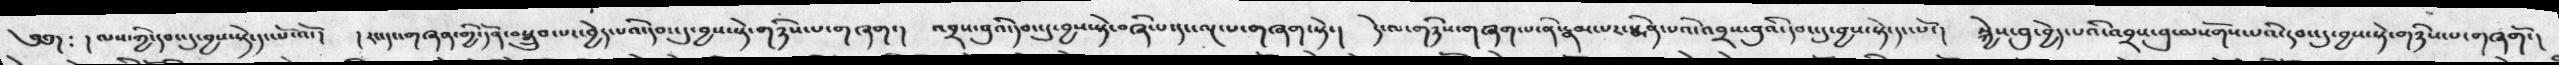༄༅། ༴ །ལས་ཀྱི་དབང་དུ་བྱས་སྟེ་དང་པོ་འོ་།  །རང་དང་གཞན་གྱི་དོན་བསྒྲུབ་པར་བྱེད་པའི་དབང་དུ་བྱས་སྟེ་གཉིས་པ་གཞག་།  འབྲས་བུའི་དབང་དུ་བྱས་སྟེ་བཞི་པ་དང་ལྔ་པ་གཞག་སྟེ་།  དེ་ལ་གཉིས་གཞག་པ་ནི་རྣམ་པར་སྨིན་པའི་འབྲས་བུའི་དབང་དུ་བྱས་སྟེ་དང་པོ་།  སྐྱེས་བུ་བྱེད་པའི་འབྲས་བུ་ལསོགས་པའི་དབང་དུ་བྱས་སྟེ་གཉིས་པ་གཞགོ་།
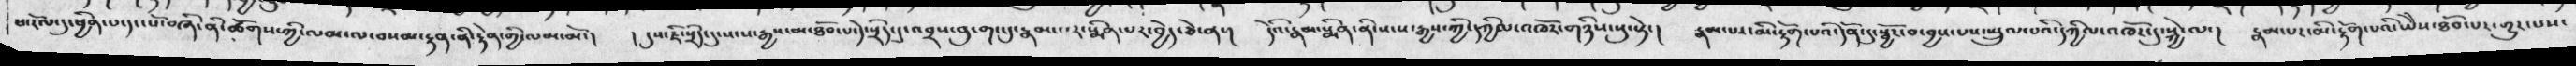ཕ་རོལ་དུ་ཕྱིན་པ་དང་པོ་བཞི་ནི་ཚོགས་ཀྱི་ལམ་ལ་བསམ་རྟན་ནི་རྟེན་ལམ་མོ་།   ། དུས་ཇི་སྲིད་དུ་སངས་རྒྱས་མ་ཐོབ་པ་དེ་སྲིད་དུ་འབྲས་བུ་གང་དུ་རྣམ་པར་སྨིན་པར་བྱེད་ཅེ་ན་།   དེའི་རྣམ་སྨིན་ནི་སངས་རྒྱས་ཀྱི་དཀྱིལ་འཁོར་གཉིས་སུ་སྟེ་།  རྣམ་པར་མི་རྟོག་པའི་དོན་དུ་སྦྱོར་བ་བྱས་པས་སྤྲུལ་པའི་དཀྱིལ་འཁོར་དུ་སྐྱེ་ལ་།   རྣམ་པར་མི་རྟོག་པའི་ཡེེས་ཐོབ་པར་གྱུར་པས་
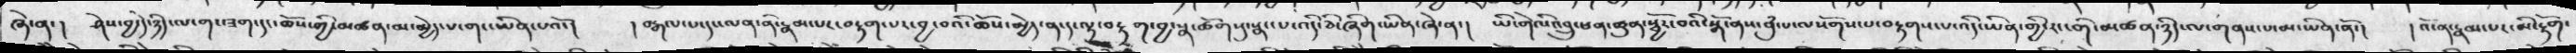ཞེ་ན་།  ཤེས་བྱ་དེ་ཉིད་ལ་གང་ཟག་དང་ཆོས་གྱི་མཚན་མ་མྱེད་པ་གང་ཡིན་པའོ་།  །བརྒལ་པ་དང་ལན་ནི་རྣམ་པར་བརྟག་པར་བྱ་བའི་ཆོས་མྱེད་ན་ད་ལྟ་བརྟག་བྱ་སྣ་ཚོགསུ་སྣང་པ་འདི་ཅི་ཞིག་ཡིན་ཞེ་ན་། ཡི་གེའི་འབྲུ་ཕན་ཚུན་སྦྱོར་བའི་སྒོ་ནས་བུཾ་པ་ལསོགས་པ་བརྟགས་པ་འདི་ཡིན་གྱི་རང་གི་མཚན་ཉིད་ལ་གནས་པ་མ་ཡི་ནོ་།  །འོ་ན་རྣམ་པར་མི་རྟོག་
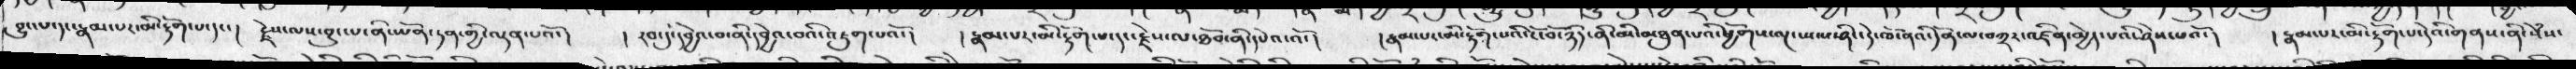བྱུང་པ་དང་རྣམ་པར་མ་རྟོག་པ་དང་།  རྗེས་ལས་བྱུང་པ་ནི་ཡོན་ཏན་གྱི་ལྡན་པའོ་།  ། རབ་དུ་དབྱེའ་བ་ནི་དབྱེའ་བའི་འཇུག་པའོ་།  ། རྣམ་པར་མི་རྟོག་པ་དང་རྗེས་ལ་ཐོབ་ནི་དཔེའ་འོ་།   །རྣམ་པར་མི་རྟོག་པའི་ངོ་བོ་ཉིད་ནི་མི་མཐུན་པའི་ཕྱོགས་ལྔ་སྤངས་ཤིང་དེ་ཁོ་ནའི་དོན་ལ་བཀྲར་འཛིན་མྱེད་པའི་ཤེས་པའོ་།  །རྣམ་པར་མི་རྟོག་པ་དེའི་གནས་ནི་སེཾས་
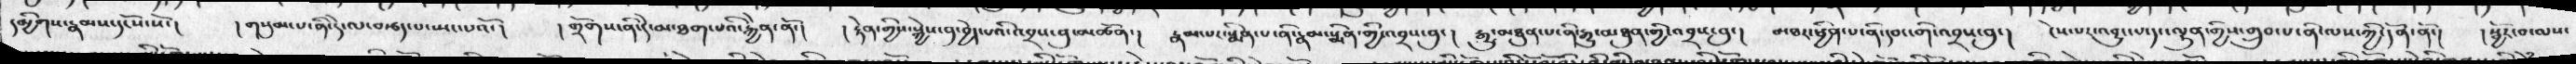དམྱིགས་རྣམས་དངོས་སོ་།  །གསུམ་པ་ནི་དེ་ལ་བརྩད་པ་སྤང་པའོ་།  ། གྲོགས་ནི་དེ་མ་ཐག་པའི་རྐྱེན་ནོ་།  ། རྟེན་གྱིས་སྐྱེས་བུ་བྱེད་པའི་འབྲས་བུ་མཚོན་།  རྣམ་པར་སྨིན་པ་ནི་རྣམ་སྨིན་གྱི་འབྲས་བུ་།  རྒྱུ་མཐུན་པ་ནི་རྒྱུ་མཐུན་གྱི་འབྲས་་བུ་།  མཐར་ཕྱིན་པ་ནི་དབང་གི་འབྲས་བུ་།  ངེས་པར་འབྱུང་པ་དང་ལྷུན་གྱིས་གྲུབ་པ་ནི་ལས་ཀྱི་དོན་ནོ་།  ། སྦྱོར་བ་ལས་
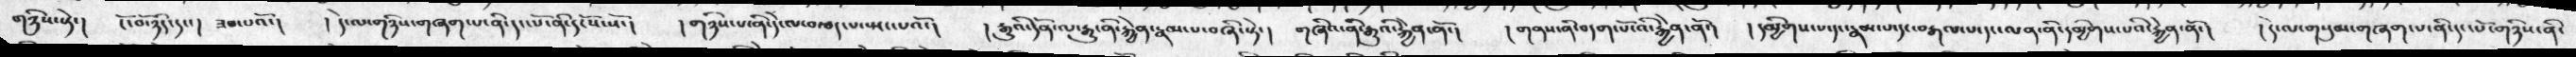གཉིས་སྟེ་།   ངོ་བོ་ཉིད་དང་།  ཟབ་པའོ་།  །དེ་ལ་གཉིས་གཞག་པ་ནི་དང་པོ་ནི་དངོས་སོ་།  །གཉིས་པ་ནི་དེ་ལ་བརྩད་པ་སྤང་པའོ་།  །རྒྱུའི་དོན་ལ་རྒྱུ་རྐྱེན་རྣམ་པ་བཞི་སྟེ་།  གཞིའ་ནི་རྒྱུའི་རྐྱེན་ནོ་།  །གནས་ནི་བདག་པོ་འི་རྐྱེན་ནོ་།  །དམྱིགས་པ་དང་རྣམ་པ་དང་བརྒལ་པ་དང་ལན་ནི་དམྱིགས་པའི་རྐྱེན་ནོ་།  །དེ་ལ་གསུམ་གཞག་པ་ནི་དང་པོ་གཉིས་ནི་
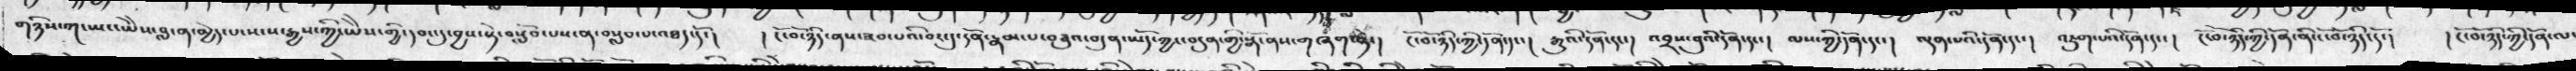གཉིས་པ་ཡང་ཡེེས་བླ་ན་མྱེད་པ་སངས་རྒྱས་ཀྱི་ཡེེས་གྱི་དབང་དུ་བྱས་སྟེ་བསློབ་པས་ན་བསླབ་པ་འཐད་དོ་།   ། ངོ་བོ་ཉིད་ནས་ཟབ་པའི་བར་དུ་དོན་རྣམ་པ་བཅུའ་བདུན་ཡོད་ཀྱང་བདུན་གྱི་སྒོ་ནས་གཞག་སྟེ་།  ངོ་བོ་ཉིད་ཀྱི་དོན་དང་།  རྒྱུའི་དོན་དང་།  འབྲས་བུའི་དོན་དང་།  ལས་ཀྱི་དོན་དང་།  ལྡན་པའི་དོན་དང་།  འཇུག་པའི་དོན་དང་།  ངོ་བོ་ཉིད་ཀྱི་དོན་ནི་ངོ་བོ་ཉིད་དོ་།  ། ངོ་བོ་ཉིད་དོན་ལ་
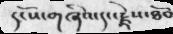དངོས་གཞིའ་དང་རྗེས་ཐོབ
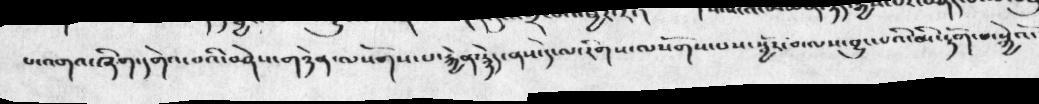པ་འགའ་ཞིག་དགེའ་བའི་བཤེས་གཉེན་ལསོགས་པ་རྐྱེན་རྙེད་ནས་དེ་ལ་རིགས་ལསོགས་པས་སྦྱོར་བ་ལས་བྱུང་པའི་མི་རྟོག་པ་སྐྱེའོ་
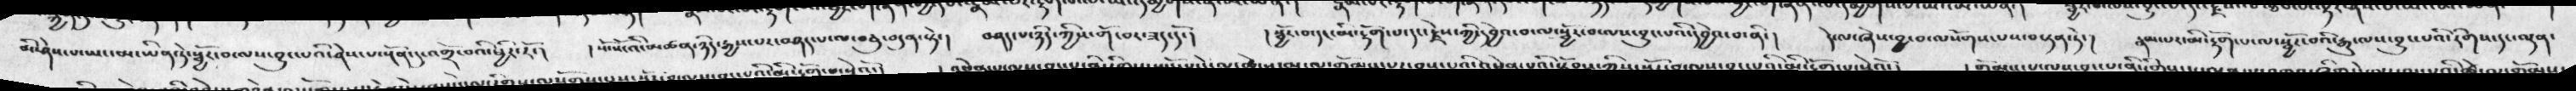མི་ཤེས་པ་ཡང་མ་ཡིན་ཏེ་སྦྱོར་བ་ལས་བྱུང་པའི་ཤེས་པ་སྔོན་དུ་འགྲོ་བའི་ཕྱིར་རོ་།  ། སོ་སོའི་མཚན་ཉིད་རྒྱས་པར་བཤད་པ་ལ་བཅུ་བདུན་སྟེ་།  བཤད་པ་ཉིད་ཀྱིས་གོ་བར་ཟད་དོ་།  ། སྦྱོར་བ་དང་མི་རྟོག་པ་དང་རྗེས་ཀྱི་དབྱེའ་བ་ལ་སྦྱོར་བ་ལས་བྱུང་པའི་དབྱེའ་བ་ནི་།   དེ་ལ་ཞེས་བྱ་བ་ལསོགས་པས་བསྟན་ཏེ་།  རྣམ་པར་མི་རྟོག་པ་ལ་སྦྱོར་བའི་རྒྱུ་ལས་བྱུང་པའི་རིགས་དང་ལྡན་
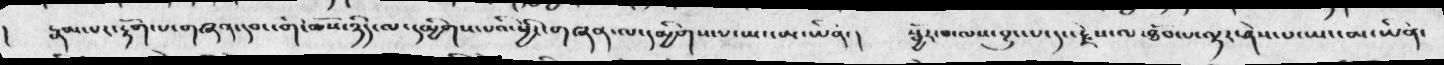།  རྣམ་པར་རྟོག་པ་གཞན་དབང་གི་ཆོས་ཉིད་ལ་དམྱིགས་པའི་ཕྱིར་གཞན་ལ་དམྱིགས་པ་ཡང་མ་ཡིན་།  སྦྱོར་བ་ལས་བྱུང་པ་དང་རྗེས་ལ་ཐོབ་པ་ལྟར་ཤེས་པ་ཡང་མ་ཡིན་
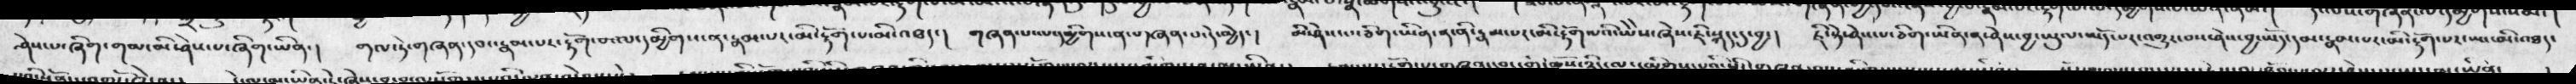ཤེས་པ་ཞིག་གམ་མི་ཤེས་པ་ཞིག་ཡིན་།  གལ་ཏེ་གཞན་དབང་རྣམ་པར་རྟོག་པ་ལ་དམྱིགས་ན་རྣམ་པར་མི་རྟོག་པ་མི་འཐད་།  གཞན་པ་ལ་དམྱིགས་ན་པད་ཞན་པ་དེ་མྱེད་།  མི་ཤེས་པ་ཅིག་ཡིན་ན་ནི་རྣམ་པར་མི་རྟོག་པའི་ཡེེས་ཞེས་ཇི་སྐད་དུ་བྱ་།  ཇི་སྟེ་ཤེས་པ་ཅིག་ཡིན་ན་ཤེས་བྱ་ཡུལ་ཡོད་པར་འགྱུར་བས་ཤེས་བྱ་ཡོད་དམ་རྣམ་པར་མི་རྟོག་པར་ཡང་མི་འཐད་
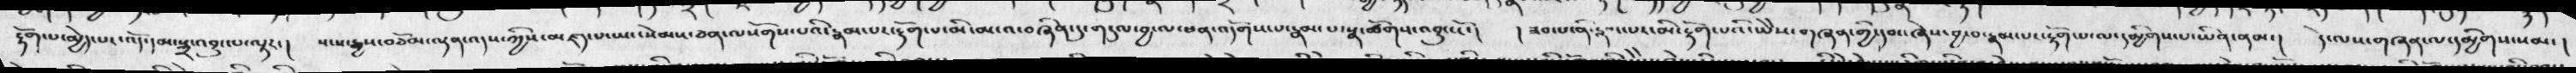རྟོག་པ་མྱེད་པར་འོད་དམ་སྒྲ་འབྱུང་པ་ལྟར་།  སངས་རྒྱས་བཅོམ་ལྡན་འདས་ཀྱིས་མཛད་པ་ཡང་སེམས་ཅན་ལསོགས་པའི་རྣམ་པར་རྟོག་པ་མི་མངའ་བཞིན་དུ་གདུལ་བྱ་ལ་ཕན་འདོགས་པར་རྣམ་པར་སྣ་ཚོགས་འབྱུང་ངོ་།  ། ཟབ་པ་ནི་རྣམ་པར་མི་རྟོག་པའི་ཡེེས་གཞན་གྱི་དབང་ཞེས་བྱ་བ་རྣམ་པར་རྟོག་པ་ལ་དམྱིགས་པ་ཡིན་ནམ་།   དེ་ལས་གཞན་ལ་དམྱིགས་སམ་།
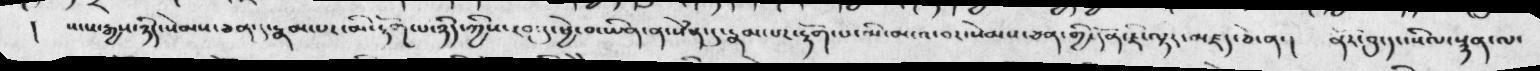།  སངས་རྒྱས་ཉིད་སེམས་ཅན་དང་རྣམ་པར་མི་རྟོག་པ་ཉིད་ཀྱིས་རབ་དུ་ཕྱེ་བ་ཡིན་ན་སེཾན་དུ་རྣམ་པར་རྟོག་པ་མི་མངའ་བར་སེམས་ཅན་གྱི་དོན་ཇི་ལྟར་མཛད་ཅེ་ན་།  ནོར་བུ་དང་སིལ་སྙན་ལ་
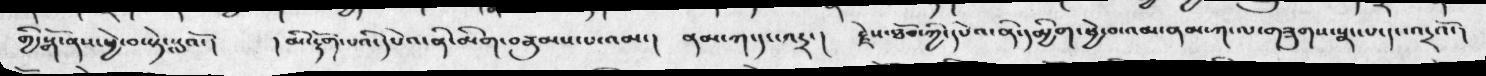གྱི་སྒོ་ནས་ཕྱེ་བ་སྟེ་སློའོ་།   །མི་རྟོག་པའི་དཔེའ་ནི་མིག་བརྣུམས་པ་འམ་།  ནམ་ཀ་དང་འདྲ་།  རྗེས་ཐོབ་ཀྱི་དཔེའ་ནི་དམྱིག་ཕྱེ་བ་འམ་ནམ་ཀ་ལ་གཟུགས་སྣང་པ་དང་འདྲའོ་།
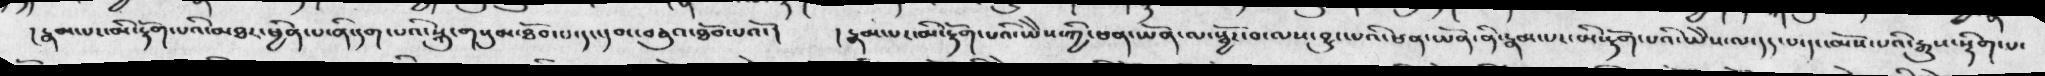། རྣམ་པ་མི་རྟོག་པའི་མཐར་ཕྱིན་པ་ནི་དག་པའི་སྐུ་གསུམ་ཐོབ་པ་དང་དབང་བཅུའ་ཐོབ་པའོ་།  ། རྣམ་པར་མི་རྟོག་པའི་ཡེེས་ཀྱི་ཕན་ཡོན་ལ་སྦྱོར་བ་ལས་བྱུང་པའི་ཕན་ཡོན་ནི་རྣམ་པར་མི་རྟོག་པའི་ཡེེས་ལ་དད་པ་དང་མོས་པའི་རྒྱུས་སྡིག་པ་
